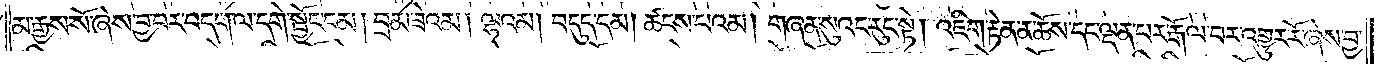མ་རྒྱས་སོ་ཞེས་བྱ་བར་བདག་ལ་དགེ་སྦྱོང་ངམ། བྲམ་ཟེ་འམ། ལྷའམ། བདུད་དམ། ཚངས་པའམ། གཞན་སུའང་རུང་སྟེ། འཇིག་རྟེན་ན་ཆོས་དང་ལྡན་པར་རྒོལ་བར་འགྱུར་རོ་ཞེས་བྱ་
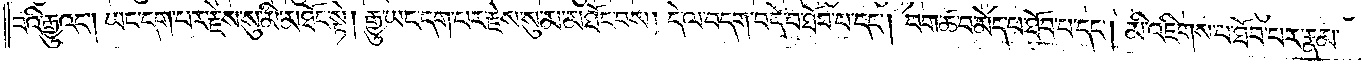བའི་རྒྱུའང༌། ཡང་དག་པར་རྗེས་སུ་མི་མཐོང་སྟེ། རྒྱུ་ཡང་དག་པར་རྗེས་སུ་མ་མཐོང་བས། དེ་ལ་བདག་བདེ་བ་ཐོབ་པ་དང༌། བག་ཚ་བ་མེད་པ་ཐོབ་པ་དང༌། མི་འཇིགས་པ་ཐོབ་པར་རྣམ་
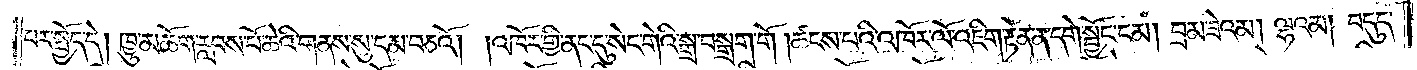པར་སྤྱོད་དེ། ཁྱུ་མཆོག་རླབས་པོ་ཆེའི་གནས་སུ་དམ་བཅའོ། །འཁོར་གྱི་ནང་དུ་སེང་གེའི་སྒྲ་བསྒྲག་གོ །ཚངས་པའི་འཁོར་ལོ་འཇིག་རྟེན་ན་དགེ་སྦྱོང་ངམ། བྲམ་ཟེ་འམ། ལྷའམ། བདུད་
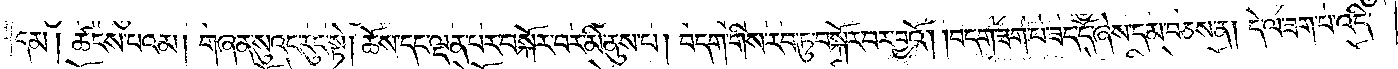དམ། ཚངས་པ་འམ། གཞན་སུའང་རུང་སྟེ། ཆོས་དང་ལྡན་པར་བསྐོར་བར་མི་ནུས་པ། བདག་གིས་རབ་ཏུ་བསྐོར་བར་བྱའོ། །བདག་ཟག་པ་ཟད་དོ་ཞེས་དམ་བཅས་ན། དེ་ལ་ཟག་པ་འདི་
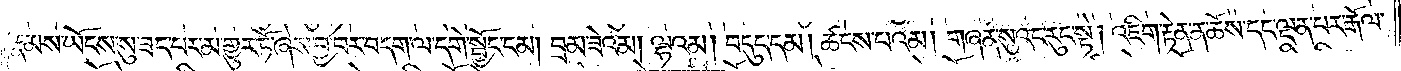རྣམས་ཡོངས་སུ་ཟད་པར་མ་གྱུར་ཏོ་ཞེས་བྱ་བར་བདག་ལ་དགེ་སྦྱོང་ངམ། བྲམ་ཟེའམ། ལྷ་འམ། བདུད་དམ། ཚངས་པའམ། གཞན་སུའང་རུང་སྟེ། འཇིག་རྟེན་ན་ཆོས་དང་ལྡན་པར་རྒོལ་
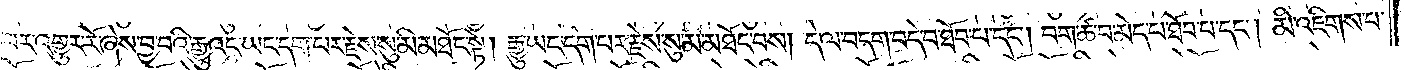བར་འགྱུར་རོ་ཞེས་བྱ་བའི་རྒྱུའང་ཡང་དག་པར་རྗེས་སུ་མི་མཐོང་སྟེ། རྒྱུ་ཡང་དག་པར་རྗེས་སུ་མ་མཐོང་བས། དེ་ལ་བདག་བདེ་བ་ཐོབ་པ་དང༌། བག་ཚ་བ་མེད་པ་ཐོབ་པ་དང༌། མི་འཇིགས་པ་
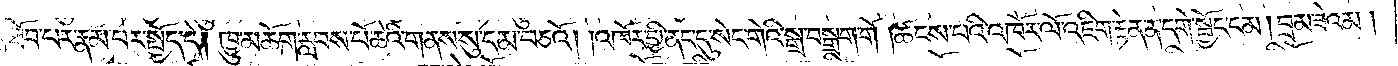ཐོབ་པར་རྣམ་པར་སྤྱོད་དེ། ཁྱུ་མཆོག་རླབས་པོ་ཆེའི་གནས་སུ་དམ་བཅའོ། །འཁོར་གྱི་ནང་དུ་སེང་གེའི་སྒྲ་བསྒྲག་གོ །ཚངས་པའི་འཁོར་ལོ་འཇིག་རྟེན་ན་དགེ་སྦྱོང་ངམ། བྲམ་ཟེའམ།
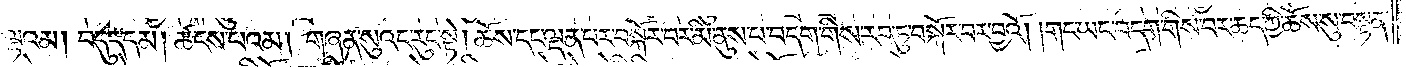ལྷའམ། བདུད་དམ། ཚངས་པའམ། གཞན་སུའང་རུང་སྟེ། ཆོས་དང་ལྡན་པར་བསྐོར་བར་མི་ནུས་པ་བདག་གིས་རབ་ཏུ་བསྐོར་བར་བྱའོ། །གང་ཡང་བདག་གིས་བར་ཆད་ཀྱི་ཆོས་སུ་བསྟན་
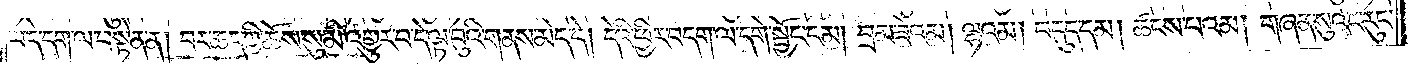པ་དེ་དག་ལ་བསྟེན་ན། བར་ཆད་ཀྱི་ཆོས་སུ་མི་འགྱུར་བ་དེ་ལྟ་བུའི་གནས་མེད་དེ། དེའི་ཕྱིར་བདག་ལ་དགེ་སྦྱོང་ངམ། བྲམ་ཟེའམ། ལྷའམ། བདུད་དམ། ཚངས་པའམ། གཞན་སུའང་རུང་
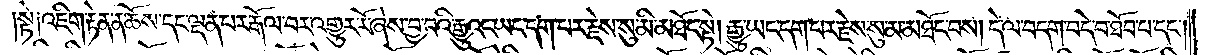།སྟེ༑ འཇིག་རྟེན་ན་ཆོས་དང་ལྡན་པར་རྒོལ་བར་འགྱུར་རོ་ཞེས་བྱ་བའི་རྒྱུའང་ཡང་དག་པར་རྗེས་སུ་མི་མཐོང་སྟེ། རྒྱུ་ཡང་དག་པར་རྗེས་སུ་མ་མཐོང་བས། དེ་ལ་བདག་བདེ་བ་ཐོབ་པ་དང༌།
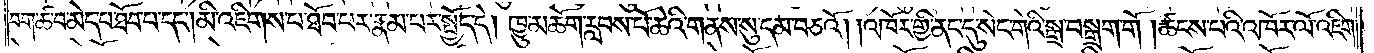བག་ཚ་བ་མེད་པ་ཐོབ་པ་དང༌། མི་འཇིགས་པ་ཐོབ་པར་རྣམ་པར་སྤྱོད་དེ། ཁྱུ་མཆོག་རླབས་པོ་ཆེའི་གནས་སུ་དམ་བཅའོ། །འཁོར་གྱི་ནང་དུ་སེང་གེའི་སྒྲ་བསྒྲག་གོ །ཚངས་པའི་འཁོར་ལོ་འཇིག་
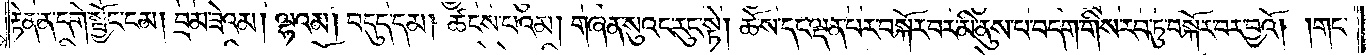རྟེན་ན་དགེ་སྦྱོང་ངམ། བྲམ་ཟེ་འམ། ལྷ་འམ། བདུད་དམ། ཚངས་པའམ། གཞན་སུའང་རུང་སྟེ། ཆོས་དང་ལྡན་པར་བསྐོར་བར་མི་ནུས་པ་བདག་གིས་རབ་ཏུ་བསྐོར་བར་བྱའོ། །གང་
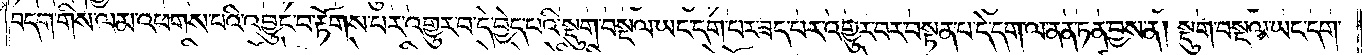བདག་གིས་ལམ་འཕགས་པའི་འབྱུང་བ་རྟོགས་པར་འགྱུར་བ་དེ་བྱེད་པའི་སྡུག་བསྔལ་ཡང་དག་པར་ཟད་པར་འགྱུར་བར་བསྟན་པ་དེ་དག་ལ་ནན་ཏན་བྱས་ན། སྡུག་བསྔལ་ཡང་དག་
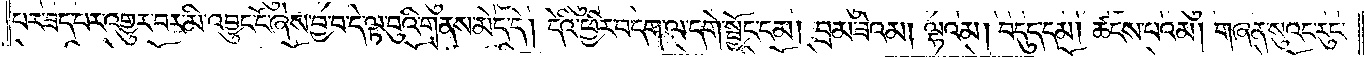པར་ཟད་པར་འགྱུར་བར་མ་འབྱུང་ངོ་ཞེས་བྱ་བ་དེ་ལྟ་བུའི་གནས་མེད་དེ། དེའི་ཕྱིར་བདག་ལ་དགེ་སྦྱོང་ངམ། བྲམ་ཟེའམ། ལྷ་འམ། བདུད་དམ། ཚངས་པ་འམ། གཞན་སུའང་རུང་
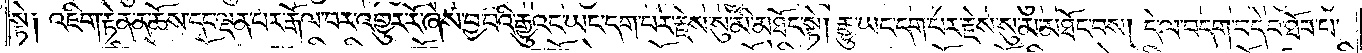སྟེ༑ འཇིག་རྟེན་ན་ཆོས་དང་ལྡན་པར་རྒོལ་བར་འགྱུར་རོ་ཞེས་བྱ་བའི་རྒྱུའང་ཡང་དག་པར་རྗེས་སུ་མི་མཐོང་སྟེ། རྒྱུ་ཡང་དག་པར་རྗེས་སུ་མ་མཐོང་བས། དེ་ལ་བདག་བདེ་བ་ཐོབ་པ་
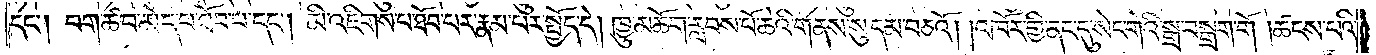དང༌། བག་ཚ་བ་མེད་པ་ཐོབ་པ་དང༌། མི་འཇིགས་པ་ཐོབ་པར་རྣམ་པར་སྤྱོད་དེ། ཁྱུ་མཆོག་རླབས་པོ་ཆེའི་གནས་སུ་དམ་བཅའོ། །འཁོར་གྱི་ནང་དུ་སེང་གེའི་སྒྲ་བསྒྲག་གོ །ཚངས་པའི་
